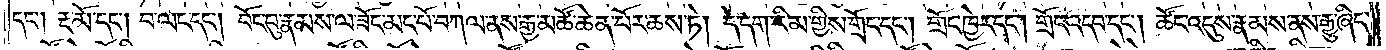དང༌། རྔ་མོ་དང༌། བ་ལང་དང༌། བོང་བུ་རྣམས་ལ་ཟོང་མང་པོ་བཀལ་ནས་རྒྱ་མཚོ་ཆེན་པོར་ཆས་ཏེ། དེ་དག་རིམ་གྱིས་གྲོང་དང༌། གྲོང་ཁྱེར་དང༌། གྲོང་འདབ་དང༌། ཚོང་འདུས་རྣམས་ནས་རྒྱུ་ཞིང་
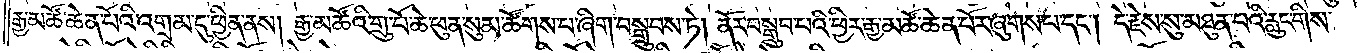རྒྱ་མཚོ་ཆེན་པོའི་འགྲམ་དུ་ཕྱིན་ནས། རྒྱ་མཚོའི་གྲུ་བོ་ཆེ་ཕུན་སུམ་ཚོགས་པ་ཞིག་བསྒྲུབས་ཏེ། ནོར་བསྒྲུབ་པའི་ཕྱིར་རྒྱ་མཚོ་ཆེན་པོར་ཞུགས་པ་དང༌། དེ་རྗེས་སུ་མཐུན་པའི་རླུང་གིས་
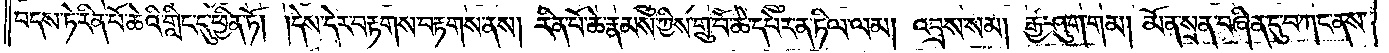བདས་ཏེ་རིན་པོ་ཆེའི་གླིང་དུ་ཕྱིན་ཏོ། །དེས་དེར་བརྟགས་བརྟགས་ནས། རིན་པོ་ཆེ་རྣམས་ཀྱིས་གྲུ་བོ་ཆེ་དཔེར་ན་ཏིལ་ལམ། འབྲས་སམ། རྒྱ་ཤུག་གམ། མོན་སྲན་བཞིན་དུ་བཀང་ནས་
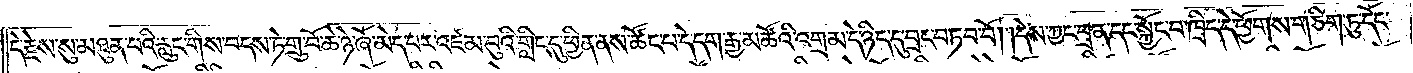དེ་རྗེས་སུ་མཐུན་པའི་རླུང་གིས་བདས་ཏེ་གྲུ་བོ་ཆེ་ཉེ་ཞོ་མེད་པར་འཛམ་བུའི་གླིང་དུ་ཕྱིན་ནས་ཚོང་པ་དེ་དག་རྒྱ་མཚོའི་འགྲམ་དེ་ཉིད་དུ་བྲང་བཏབ་བོ། །དེས་ཀྱང་བྲན་དང་སྐྱོང་བ་ཁྲིད་དེ་ཕྱོགས་གཅིག་ཏུ་དོང་
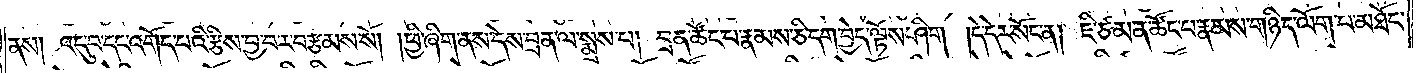ནས། འདུ་བ་དང་འགོད་པའི་རྩིས་བྱ་བར་བརྩམས་སོ། །ཕྱི་ཞིག་ནས་དེས་བྲན་ལ་སྨྲས་པ། བྲན་ཚོང་པ་རྣམས་ཅི་དག་བྱེད་ལྟོས་ཤིག །དེ་དེར་སོང་ན། ཇི་ཙམ་ན་ཚོང་པ་རྣམས་གཉིད་ལོག་པ་མཐོང་
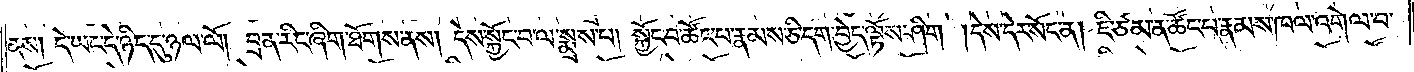ནས། དེ་ཡང་དེ་ཉིད་དུ་ཉལ་ལོ། བྲན་རིང་ཞིག་ཐོགས་ནས། དེས་སྐྱོང་བ་ལ་སྨྲས་པ། སྐྱོང་བ་ཚོང་པ་རྣམས་ཅི་དག་བྱེད་ལྟོས་ཤིག །དེས་དེར་སོང་ན། ཇི་ཙམ་ན་ཚོང་པ་རྣམས་ཁལ་འགེལ་བ་
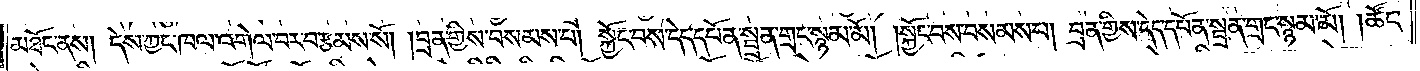མཐོང་ནས། དེས་ཀྱང་ཁལ་འགེལ་བར་བརྩམས་སོ། །བྲན་གྱིས་བསམས་པ། སྐྱོང་བས་དེད་དཔོན་སྦྲན་གྲང་སྙམ་མོ། །སྐྱོང་བས་བསམས་པ། བྲན་གྱིས་དེད་དཔོན་སྦྲན་གྲང་སྙམ་མོ། །ཚོང་
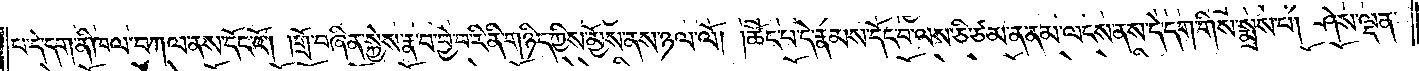པ་དེ་དག་ནི་ཁལ་བཀལ་ནས་དོང་ངོ༌། །གྲོ་བཞིན་སྐྱེས་རྣ་བ་བྱེ་བ་རི་ནི་གཉིད་ཀྱིས་མྱོས་ནས་ཉལ་ལོ། །ཚོང་པ་དེ་རྣམས་དོང་བ་ལས་ཅི་ཙམ་ན་ནམ་ལངས་ནས་དེ་དག་གིས་སྨྲས་པ། ཤེས་ལྡན་
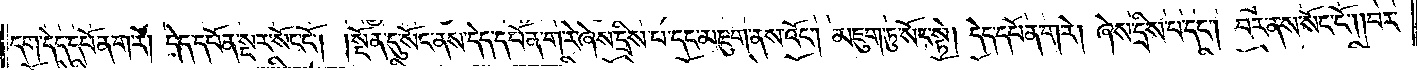དག་དེད་དཔོན་ག་རེ། དེད་དཔོན་སྔར་སོང་ངོ༌། །སྔོན་དུ་སོང་ནས་དེད་དཔོན་ག་རེ་ཞེས་དྲིས་པ་དང་མཇུག་ནས་འོང༌། མཇུག་ཏུ་སོང་སྟེ། དེད་དཔོན་ག་རེ། ཞེས་དྲིས་པ་དང༌། བར་ནས་སོང་ངོ༌། །བར་
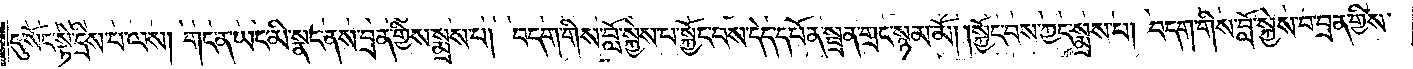དུ་སོང་སྟེ་དྲིས་པ་ལས། གང་ན་ཡང་མི་སྣང་ནས་བྲན་གྱིས་སྨྲས་པ། བདག་གིས་བློ་སྐྱེས་པ་སྐྱོང་བས་དེད་དཔོན་སྦྲན་གྲང་སྙམ་མོ། །སྐྱོང་བས་ཀྱང་སྨྲས་པ། བདག་གིས་བློ་སྐྱེས་བ་བྲན་གྱིས་
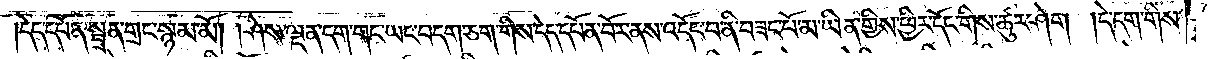དེད་དཔོན་སྦྲན་གྲང་སྙམ་མོ། །ཤེས་ལྡན་དག་གང་ཡང་བདག་ཅག་གིས་དེད་དཔོན་བོར་ནས་འདོང་བ་ནི་བཟང་པོ་མ་ཡིན་གྱིས་ཕྱིར་དོང་གིས་ཚུར་ཤེག །དེ་དག་གིས་
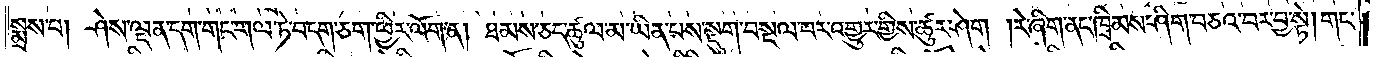སྨྲས་པ། ཤེས་ལྡན་དག་གང་གལ་ཏེ་བདག་ཅག་ཕྱིར་ལོག་ན། ཐམས་ཅད་ཚུལ་མ་ཡིན་པས་སྡུག་བསྔལ་པར་འགྱུར་གྱིས་ཚུར་ཤེག །རེ་ཞིག་ནང་ཁྲིམས་ཤིག་བཅའ་བར་བྱ་སྟེ། གང་
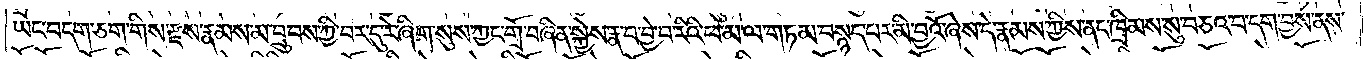ཡང་བདག་ཅག་གིས་རྫས་རྣམས་མ་བྲུབས་ཀྱི་བར་དུ་རེ་ཞིག་སུས་ཀྱང་གྲོ་བཞིན་སྐྱེས་རྣ་བ་བྱེ་བ་རིའི་ཕ་མ་ལ་གཏམ་བསྙད་པར་མི་བྱའོ་ཞེས་དེ་རྣམས་ཀྱིས་ནང་ཁྲིམས་སུ་བཅའ་བ་དག་བྱས་ནས་
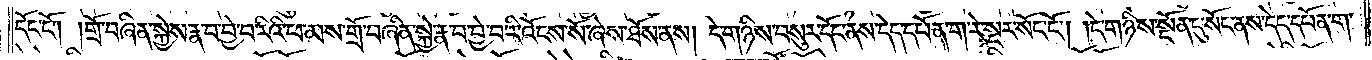དོང་ངོ༌། །གྲོ་བཞིན་སྐྱེས་རྣ་བ་བྱེ་བ་རིའི་ཕ་མས་གྲོ་བཞིན་སྐྱེ་རྣ་བ་བྱེ་བ་རི་འོངས་སོ་ཞེས་ཐོས་ནས། དེ་གཉིས་བསུར་དོང་ནས་དེད་དཔོན་ག་རེ་སྔར་སོང་ངོ༌། །དེ་གཉིས་སྔོན་དུ་སོང་ནས་དེད་དཔོན་ག་
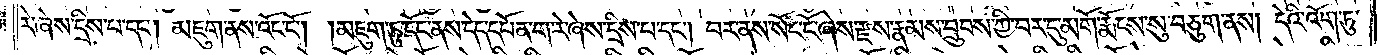རེ་ཞེས་དྲིས་པ་དང༌། མཇུག་ནས་འོང་ངོ༌། །མཇུག་ཏུ་དོང་ནས་དེད་དཔོན་ག་རེ་ཞེས་དྲིས་པ་དང༌། བར་ནས་སོང་ངོ་ཞེས་རྫས་རྣམས་བྲུབས་ཀྱི་པར་དུ་མགོ་རྨོངས་སུ་བཅུག་ནས། དེའི་འོག་ཏུ་
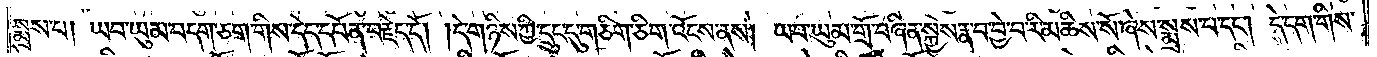སྨྲས་པ། ཡབ་ཡུམ་བདག་ཅག་གིས་དེད་དཔོན་བརྗེད་དོ། །དེ་གཉིས་ཀྱི་དྲུང་དུ་གཅིག་ཅིག་འོངས་ནས། ཡབ་ཡུམ་གྲོ་བཞིན་སྐྱེས་རྣ་བ་བྱེ་བ་རི་མཆིས་སོ་ཞེས་སྨྲས་པ་དང༌། དེ་དག་གིས་
